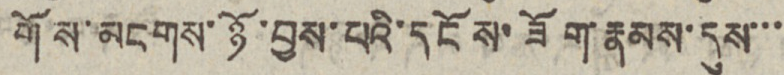གོས་མངགས་ཉོ་བྱས་པའི་དངོས་ཟོག་རྣམས་དུས་་་
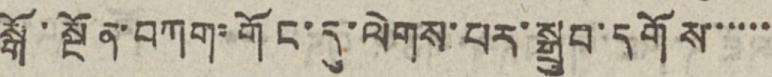སྒོ་སྔོན་བཀག་གོང་དུ་ལེགས་པར་སྒྲུབ་དགོས་་་་་་
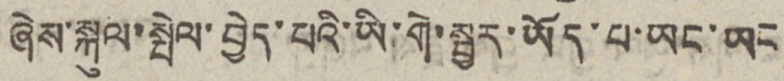ཞེས་སྐུལ་སྤེལ་བྱེད་པའི་ཡི་གེ་སྦྱར་ཡོད་པ་ཡང་ཡང
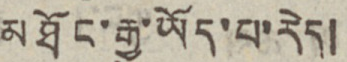མཐོང་རྒྱུ་ཡོད་པ་རེད།
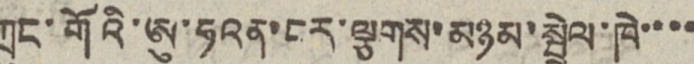ཀྲུང་གོའི་ཨུ་ཧའན་ངར་ལྕགས་མཉམ་སྦྲེལ་ཁེ་་་་
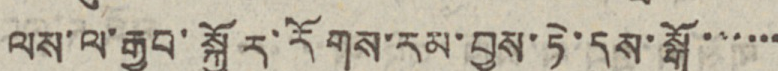ལས་ལ་རྒྱབ་སྐྱོར་རོགས་རམ་བྱས་ཏེ་དུས་སྒོ་་་་་་
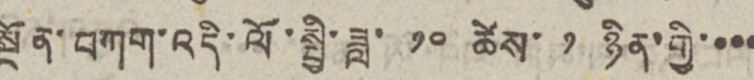སྔོན་བཀག་འདི་ལོ་སྤྱི་ཟླ་ ༡༠ ཚེས་ ༡ ཉིན་གྱི་་་་
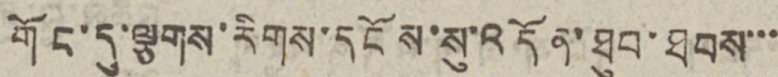གོང་དུ་ལྕགས་རིགས་དངོས་སུ་འདོན་ཐུབ་ཐབས་་་
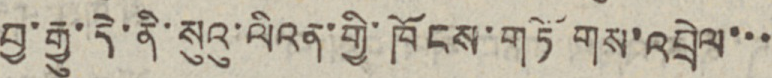བྱ་རྒྱུ་དེ་ནི་སུའུ་ལིའན་གྱི་ཁོངས་གཏོགས་འབྲེལ་་་
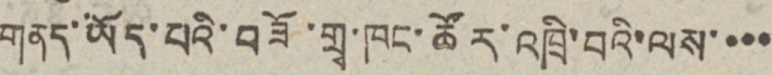གནད་ཡོད་པའི་བཟོ་གྲྭ་ཁང་ཚོར་འཁྲི་བའི་ལས་་་་
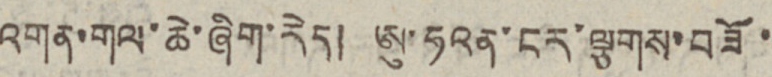འགན་གལ་ཆེ་ཞིག་རེད། ཨུ་ཧའན་ངར་ལྕགས་བཟོ་
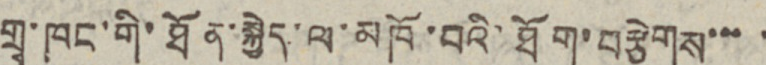གྲྭ་ཁང་གི་ཐོན་སྐྱེད་ལ་མཁོ་བའི་ཐོག་བརྩེགས་་་ ་
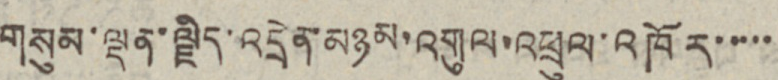གསུམ་ལྡན་ལྗིད་འདྲེན་མཉམ་འགུལ་འཕྲུལ་འཁོར་་་་་
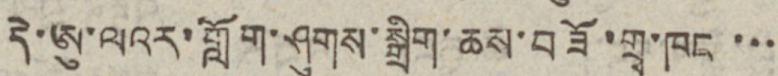དེ་ཨུ་ལའར་གློག་ཤུགས་སྒྲིག་ཆས་བཟོ་གྲྭ་ཁང་་་
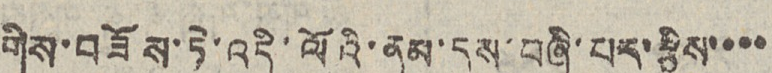གིས་བཟོས་ཏེ་འདི་ལོའི་ནམ་དུས་བཞི་པར་རྩིས་་་་
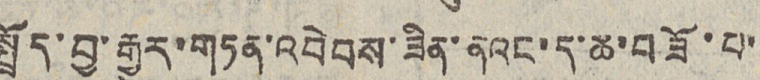སྤྲོད་བྱ་རྒྱུར་གཏན་འབེབས་ཟིན་ནའང་ད་ཆ་བཟོ་པ་
